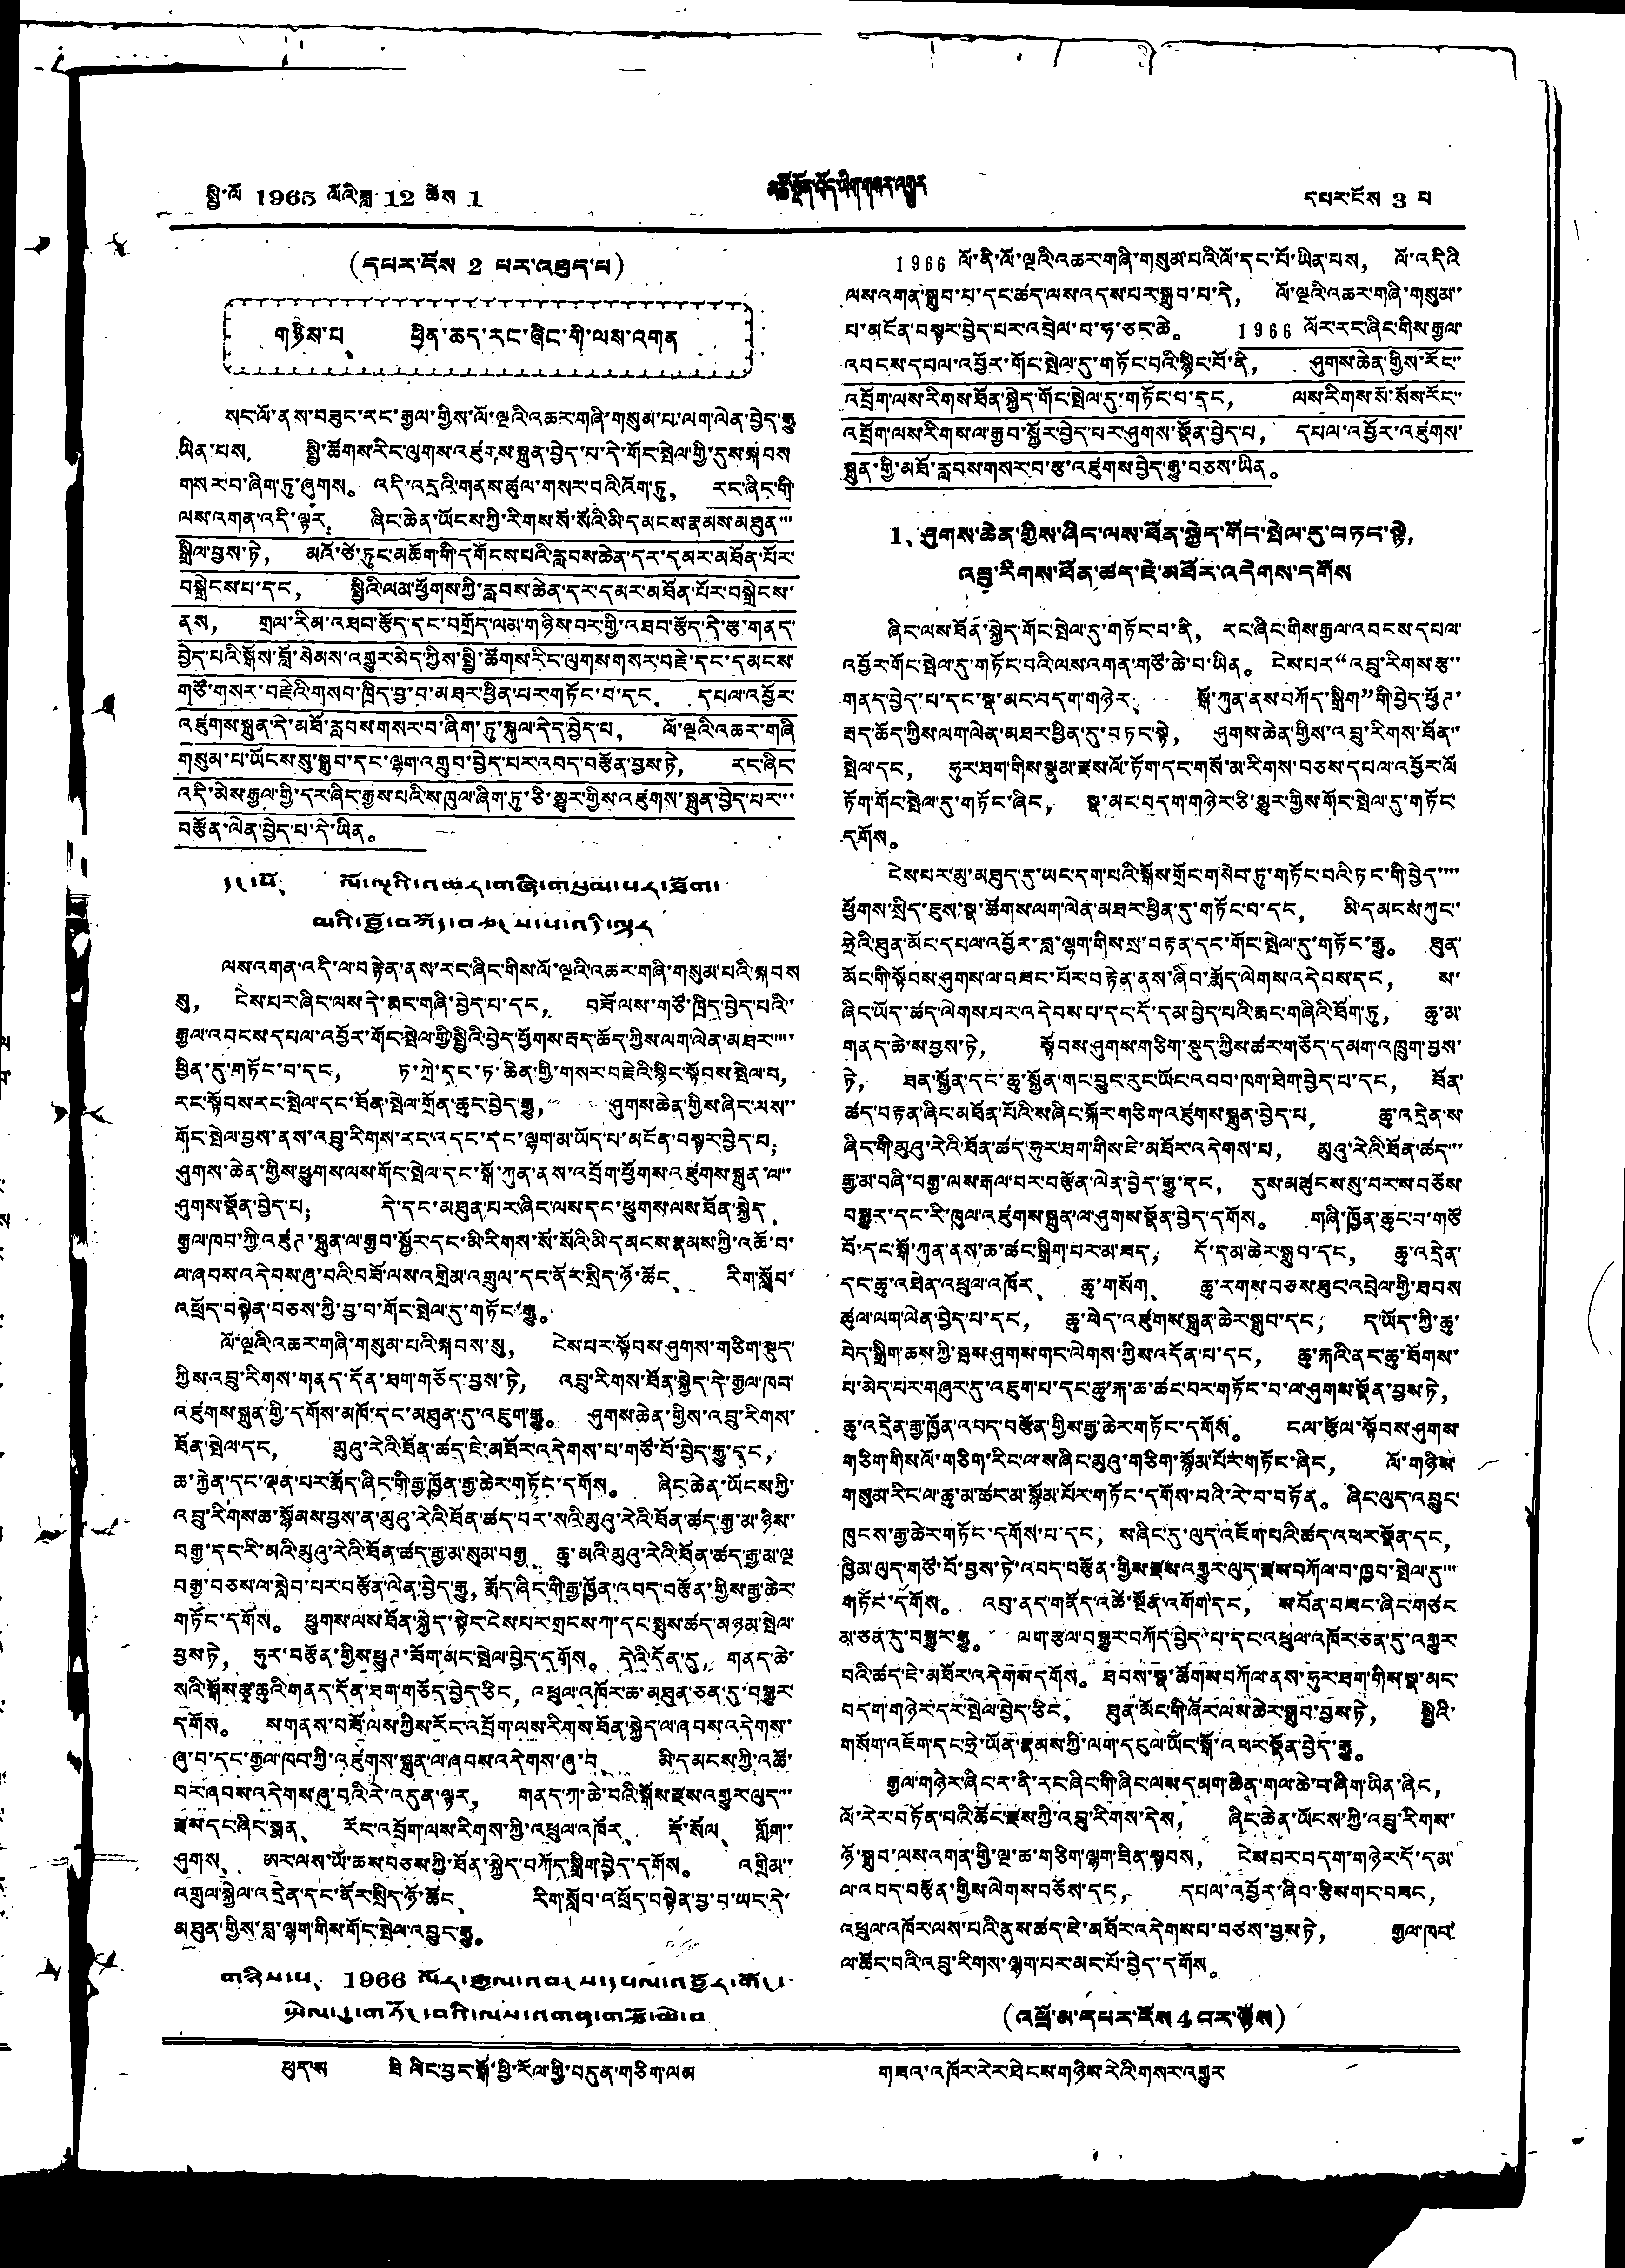སྤྱི་ལོ 1965 ལོའི་ཟླ་ 12 ཚེས 1 མཚོ་སྔོན་བོད་ཡིག་གསར་འགྱུར དཔར་ངོས 3 པ
(དཔར་ངོས 2 པར་འཕུད་པ)
གཉིས་པ、 ཕྱིན་ཆད་རང་ཞིང་གི་ལས་འགན
སང་ལོ་ནས་བཟུང་རང་རྒྱལ་གྱིས་ལོ་ལྔའི་འཆར་གཞི་གསུམ་པ་ལག་ལེན་བྱེད་རྒྱུ
ཡིན་པས， སྤྱི་ཚོགས་རིང་ལུགས་འཛུགས་སྐྲུན་བྱེད་པ་དེ་གོད་སྤེལ་གྱི་དུས་སྐབས
གསར་བ་ཞིག་ཏུ་ཞུགས。 འདི་འདྲའི་གནས་ཚུལ་གསར་བའི་འོག་ཏུ， རང་ཞིང་གི་
ལས་འགན་འདི་ལྟར ཞིང་ཆེན་ཡོངས་ཀྱི་རིགས་སོ་སོའི་མི་དམངས་རྣམས་མཐུན་་་
སྒྲིལ་བྱས་ཏེ， མའོ་ཙེ་ཏུང་མཆོག་གི་དགོངས་པའི་རླབས་ཆེན་དར་དམར་མཐོན་པོར་
བསྒྲེངས་པ་དང， སྤྱིའི་ལམ་ཕྱོགས་ཀྱི་རླབས་ཆེན་དར་དམར་མཐོན་པོར་བསྒྲེངས་
ནས， གྲལ་རིམ་འཐབ་རྩོད་དང་བགྲོད་ལམ་གཉིས་བར་གྱི་འཐབ་རྩོད་དེ་རྩ་གནད་
བྱེད་པའི་སྒོས་བློ་སེམས་འགྱུར་མེད་ཀྱིས་སྤྱི་ཚོགས་རིང་ལུགས་གསར་བརྗེ་དང་དམངས་
གཙོ་གསར་བརྗེའི་གསབ་ཁྲིད་བྱ་བ་མཐར་ཕྱིན་པར་གཏོང་བ་དང， དཔལ་འབྱོར་
འཛུགས་སྐྲུན་དེ་མཐོ་རླབས་གསར་བ་ཞིག་ཏུ་སྐུལ་དེད་བྱེད་པ， ལོ་ལྔའི་འཆར་གཞི
གསུམ་པ་ཡོངས་སུ་སྒྲུབ་དང་ལྷག་འགྲུབ་བྱེད་པར་འབད་བརྩོན་བྱས་ཏེ， རང་ཞིང་
འདི་མེས་རྒྱལ་གྱི་དར་ཞིང་རྒྱས་པའི་ས་ཁུལ་ཞིག་ཏུ་ཅི་མྱུར་གྱིས་འཛུགས་སྐྲུན་བྱེད་པར་་་
བརྩོན་ལེན་བྱེད་པ་དེ་ཡིན。
དང་པོ、 ལོ་ལྔའི་འཆར་གཞི་གསུམ་པར་ཐོག་
མའི་བྱོ་བཀོད་བཅངས་པ་འདི་ལྟར་
ལས་འགན་འདི་ལ་བརྟེན་ནས་རང་ཞིང་གིས་ལོ་ལྔའི་འཆར་གཞི་གསུམ་པའི་སྐབས
སུ， ངེས་པར་ཞིང་ལས་དེ་རྨང་གཞི་བྱེད་པ་དང， བཟོ་ལས་གཙོ་ཁྲིད་བྱེད་པའི་་
རྒྱལ་འབངས་དཔལ་འབྱོར་གོད་སྤེལ་གྱི་སྤྱིའི་བྱེད་ཕྱོགས་རྦད་ཆོད་ཀྱིས་ལག་ལེན་མཐར་་་་་
ཕྱིན་དུ་གཏོང་བ་དང， ཏ་ཀྲེ་དད་ཏ་ཆིན་གྱི་གསར་བརྗེའི་སྙིང་སྟོབས་སྤེལ་བ，
རང་སྟོབས་རང་སྤེལ་དང་ཐོན་སྤེལ་གྲོན་ཆུད་བྱེད་རྒྱུ， ཤུགས་ཆེན་གྱིས་ཞིང་ལས་་
གོང་སྤེལ་བྱས་ནས་འབྲུ་རིགས་རང་འདང་དང་ལྷག་མ་ཡོད་པ་མངོན་བསྟར་བྱེད་པ；
ཤུགས་ཆེན་གྱིས་ཕྱུགས་ལས་གོད་སྤེལ་དང་སྒོ་ཀུན་ནས་འབྲོག་ཕྱོགས་འཛུགས་སྐྲུན་ལ་་
ཤུགས་སྣོན་བྱེད་པ； དེ་དང་མཐུན་པར་ཞིང་ལས་དང་ཕྱུགས་ལས་ཐོན་སྐྱེད、
རྒྱལ་ཁབ་ཀྱི་འཛུཊ་སྐྲུན་ལ་རྒྱབ་སྐྱོར་དང་མི་རིགས་སོ་སོའི་མི་དམངས་རྣམས་ཀྱི་འཚོ་བ་
ལ་ཞབས་འདེབས་ཞུ་བའི་བཟོ་ལས་འགྲིམ་འགྲུལ་དང་ནོར་སྲིད་ཉོ་ཚོང、 རིག་སློབ་
འཕྲོད་བསྟེན་བཅས་ཀྱི་བྱ་བ་གོད་སྤེལ་དུ་གཏོང་རྒྱུ。
ལོ་ལྔའི་འཆར་གཞི་གསུམ་པའི་སྐབས་སུ， ངེས་པར་སྟོབས་ཤུགས་གཅིག་སྡུད་
ཀྱིས་འབྲུ་རིགས་གནད་དོན་ཐག་གཅོད་བྱས་ཏེ， འབྲུ་རིགས་ཐོན་སྐྱེད་དེ་རྒྱལ་ཁབ་
འཛུགས་སྐྲུན་གྱི་དགོས་མཁོ་དང་མཐུན་དུ་འཇུག་རྒྱུ。 ཤུགས་ཆེན་གྱིས་འབྲུ་རིགས་
ཐོན་སྤེལ་དང， མུའུ་རེའི་ཐོན་ཚད་ཇེ་མཐོར་འདེགས་པ་གཙོ་བོ་བྱེད་རྒྱུ་དང，
ཆ་རྐྱེན་དང་ལྡན་པར་རྨོད་ཞིང་གི་རྒྱ་ཁྱོན་རྒྱ་ཆེར་གཏོང་དགོས。 ཞིང་ཆེན་ཡོངས་ཀྱི་
འབྲུ་རིགས་ཆ་སྙོམས་བྱས་ན་མུའུ་རེའི་ཐོན་ཚད་བར་སའི་མུའུ་རེའི་ཐོན་ཚད་རྒྱ་མ་ཉིས་་
བརྒྱ་དང་རི་མའི་མུའུ་རེའི་ཐོན་ཚད་རྒྱ་མ་སུམ་བརྒྱ、 ཆུ་མའི་མུའུ་རེའི་ཐོན་ཚད་རྒྱ་མ་ལྔ
བརྒྱ་བཅས་ལ་སླེབ་པར་བརྩོན་ལེན་བྱེད་རྒྱུ， རྨོད་ཞིང་གི་རྒྱ་ཁྱོན་འབད་བརྩོན་གྱིས་རྒྱ་ཆེར་
གཏོང་དགོས。 ཕྱུགས་ལས་ཐོན་སྐྱེད་སྟེང་ངེས་པར་གྲངས་ཀ་དང་སྤུས་ཚད་མཉམ་སྤེལ་
བྱས་ཏེ， ཧུར་བརྩོན་གྱིས་ཕྱུཊ་ཟོག་མང་སྤེལ་བྱེད་དགོས。 དེའི་དོན་དུ， གནད་ཆེ་
སའི་སྒོས་རྩྭ་ཆུའི་གནད་དོན་ཐག་གཅོད་བྱེད་ཅིང， འཕྲུལ་འཁོར་ཆ་མཐུན་ཅན་དུ་བསྒྱུར་
དགོས。 ས་གནས་བཟོ་ལས་ཀྱིས་རོང་འབྲོག་ལས་རིགས་ཐོན་སྐྱེད་ལ་ཞབས་འདེགས་་
ཞུ་བ་དང་རྒྱལ་ཁབ་ཀྱི་འཛུགས་སྐྲུན་ལ་ཞབས་འདེགས་ཞུ་བ、 མི་དམངས་ཀྱི་འཚོ་
བར་ཞབས་འདེགས་ཞུ་བའི་རེ་འདུན་ལྟར， གནད་ཀ་ཆེ་བའི་སྒོས་རྫས་འགྱུར་ལུད་་་
རྫས་དང་ཞིང་སྨན、 རོང་འབྲོག་ལས་རིགས་ཀྱི་འཕྲུལ་འཁོར、 རྡོ་སོལ、 གློག་་
ཤུགས、 ཨར་ལས་ཡོ་ཆས་བཅས་ཀྱི་ཐོན་སྐྱེད་བཀོད་སྒྲིག་བྱེད་དགོས。 འགྲིམ་་
འགྲུལ་སྐྱེལ་འདྲེན་དང་ནོར་སྲིད་ཉོ་ཚོང、 རིག་སློབ་འཕྲོད་བསྟེན་བྱ་བ་ཡང་དེ་
མཐུན་གྱིས་བླ་ལྷག་གིས་གོད་སྤེལ་འབྱུང་རྒྱུ。
གཉིས་པ、 1966 ལོར་རྒྱལ་འབངས་དཔལ་འབྱོར་གོང་
སྤེལ་དུ་གཏོང་བའི་ལས་འགན་གཙོ་ཆེ་བ
1966 ལོ་ནི་ལོ་ལྔའི་འཆར་གཞི་གསུམ་པའི་ལོ་དང་པོ་ཡིན་པས， ལོ་འདིའི
ལས་འགན་སྒྲུབ་པ་དང་ཚད་ལས་འདས་པར་སྒྲུབ་པ་དེ， ལོ་ལྔའི་འཆར་གཞི་གསུམ་་
པ་མངོན་བསྟར་བྱེད་པར་འབྲེལ་བ་ཧ་ཅང་ཆེ。 1966 ལོར་རང་ཞིང་གིས་རྒྱལ་
འབངས་དཔལ་འབྱོར་གོང་སྤེལ་དུ་གཏོང་བའི་སྙིང་པོ་ནི， ཤུགས་ཆེན་གྱིས་རོང་་
འབྲོག་ལས་རིགས་ཐོན་སྐྱེད་གོར་སྤེལ་དུ་གཏོང་བ་དང， ལས་རིགས་སོ་སོས་རོང་་
འབྲོག་ལས་རིགས་ལ་རྒྱབ་སྐྱོར་བྱེད་པར་ཤུགས་སྣོན་བྱེད་པ， དཔལ་འབྱོར་འཛུགས་
སྐྲུན་གྱི་མཐོ་རླབས་གསར་བ་རྩ་འཛུགས་བྱེད་རྒྱུ་བཅས་ཡིན。
1、ཤུགས་ཆེན་གྱིས་ཞིང་ལས་ཐོན་སྐྱེད་གོད་སྤེལ་རུ་བཏང་སྟེ，
འབྲུ་རིགས་ཕོན་ཚད་ཇེ་མཐོར་འདེགས་དགོས
ཞིང་ལས་ཐོན་སྐྱེད་གོང་སྤེལ་དུ་གཏོང་བ་ནི， རང་ཞིང་གིས་རྒྱལ་འབངས་དཔལ་
འབྱོར་གོང་སྤེལ་དུ་གཏོང་བའི་ལས་འགན་གཙོ་ཆེ་བ་ཡིན。 ངེས་པར“འབྲུ་རིགས་རྩ་་
གནད་བྱེད་པ་དང་སྣ་མང་བདག་གཉེར、 སྒོ་ཀུན་ནས་བཀོད་སྒྲིག་གི་བྱེད་ཕྱོཊ་
རྦད་ཆོད་ཀྱིས་ལག་ལེན་མཐར་ཕྱིན་དུ་བཏང་སྟེ， ཤུགས་ཆེན་གྱིས་འབྲུ་རིགས་ཐོན་་
སྤེལ་དང， ཧུར་ཐག་གིས་སྣུམ་རྫས་ལོ་ཏོག་དང་གསོ་མ་རིགས་བཅས་དཔལ་འབྱོར་ལོ
ཏོག་གོང་སྤེལ་དུ་གཏོང་ཞིང， སྣ་མང་བདག་གཉེར་ཅི་མྱུར་གྱིས་གོང་སྤེལ་དུ་གཏོང་
དགོས。
ངེས་པར་མུ་མཐུད་དུ་ཡང་དག་པའི་སྒོས་གྲོང་གསེབ་ཏུ་གཏོང་བའི་ཏང་གི་བྱེད་་་་
ཕྱོགས་སྲིད་ཇུས་སྣ་ཚོགས་ལག་ལེན་མཐར་ཕྱིན་དུ་གཏོང་བ་དང， མི་དམངས་ཀུང་
ཧྲེའི་ཐུན་མོང་དཔལ་འབྱོར་བླ་ལྷག་གིས་སྲ་བརྟན་དང་གོང་སྤེལ་དུ་གཏོང་རྒྱུ。 ཐུན་
མོང་གི་སྟོབས་ཤུགས་ལ་བཟང་པོར་བརྟེན་ནས་ཞིབ་རྨོད་ལེགས་འདེབས་དང， ས་
ཞིང་ཡོད་ཚད་ལེགས་པར་འདེབས་པ་དང་དོ་དམ་བྱེད་པའི་རྨང་གཞིའི་ཐོག་ཏུ， ཆུ་མ་
གནད་ཆེ་ས་བྱས་ཏེ， སྟོབས་ཤུགས་གཅིག་སྡུད་ཀྱིས་ཚར་གཅོད་དམག་འཁྲུག་བྱས་
ཏེ， ཐན་སྐྱོན་དང་ཆུ་སྐྱོན་གང་བྱུང་རུང་ཡོང་འབབ་ཁག་ཐེག་བྱེད་པ་དང， ཐོན་
ཚད་བརྟན་ཞིང་མཐོན་པོའི་ས་ཞིང་སྐོར་གཅིག་འཛུགས་སྐྲུན་བྱེད་པ， ཆུ་འདྲེན་ས་
ཞིང་གི་མུའུ་རེའི་ཐོན་ཚད་ཧུར་ཐག་གིས་ཇེ་མཐོར་འདེགས་པ， མུའུ་རེའི་ཐོན་ཚད་་་
རྒྱ་མ་བཞི་བརྒྱ་ལས་རྒལ་བར་བརྩོན་ལེན་བྱེད་རྒྱུ་དང， དུས་མཚུངས་སུ་བརས་བཅོས་
བསྒྱུར་དང་རི་ཁུལ་འཛུགས་སྐྲུན་ལ་ཤུགས་སྣོན་བྱེད་དགོས。 གཞི་ཁྱོན་ཆུང་བ་གཙོ་
བོ་དང་སྒོ་ཀུན་ནས་ཆ་ཚང་སྒྲིག་པར་མ་ཟད， དོ་དམ་ཆེར་སྒྲུབ་དང， ཆུ་འདྲེན་
དང་ཆུ་འཐེན་འཕྲུལ་འཁོར、 ཆུ་གསོག、 ཆུ་རགས་བཅས་ཟུང་འབྲེལ་གྱི་ཐབས
ཚུལ་ལག་ལེན་བྱེད་པ་དང， ཆུ་ཕེད་འཛུགས་སྐྲུན་ཆེར་སྒྲུབ་དང， ད་ཡོད་ཀྱི་ཆུ་
བེད་སྒྲིག་ཆས་ཀྱི་སྦས་ཤུགས་གང་ལེགས་ཀྱིས་འདོན་པ་དང， ཆུ་རྐའི་ནང་ཆུ་ཐོགས་
པ་མེད་པར་གཞུར་དུ་འཇུག་པ་དང་ཆུ་རྐ་ཆ་ཚང་བར་གཏོང་བ་ལ་ཤུགས་སྣོན་བྱས་ཏེ，
ཆུ་འདྲེན་རྒྱ་ཁྱོན་འབད་བརྩོན་གྱིས་རྒྱ་ཆེར་གཏོང་དགོས。 ངལ་རྩོལ་སྟོབས་ཤུགས་
གཅིག་གིས་ལོ་གཅིག་རིང་ལ་ས་ཞིང་མུའུ་གཅིག་སྙོམ་པོར་གཏོང་ཞིང， ལོ་གཉིས་
གསུམ་རིང་ལ་ཆུ་མ་ཚང་མ་སྙོམ་པོར་གཏོང་དགོས་པའི་རེ་བ་བཏོན。 ཞིང་ལུད་འབྱུང་
ཁུངས་རྒྱ་ཆེར་གཏོང་དགོས་པ་དང， ས་ཞིང་དུ་ལུད་འཇོག་པའི་ཚད་འཕར་སྣོན་དང，
ཁྱིམ་ལུད་གཙོ་བོ་བྱས་ཏེ་འབད་བརྩོན་གྱིས་རྫས་འགྱུར་ལུད་རྫས་བཀོལ་བ་ཁྱབ་སྤེལ་དུ་་་
གཏོང་དགོས。 འབུ་ནད་གནོད་འཚེ་སྔོན་འགོག་དང， ས་བོན་བཟང་ཞིང་གཙང
མ་ཅན་དུ་བསྒྱུར་རྒྱུ。 ལག་རྩལ་བསྒྱུར་བཀོད་བྱེད་པ་དང་འཕྲུལ་འཁོར་ཅན་དུ་འགྱུར་
བའི་ཚད་ཇེ་མཐོར་འདེགས་དགོས。 ཐབས་སྣ་ཚོགས་བཀོལ་ནས་ཧུར་ཐག་གིས་སྣ་མང་
བདག་གཉེར་དར་སྤེལ་བྱེད་ཅིང， ཐུན་མོང་གི་ཞོར་ལས་ཆེར་སྒྲུབ་བྱས་ཏེ， སྤྱིའི་
གསོག་འཇོག་དང་ཧྲེ་ཡོན་རྣམས་ཀྱི་ལག་དངུལ་ཡོད་སྒོ་འཕར་སྣོན་བྱེད་རྒྱུ。
རྒྱལ་གཉེར་ཞིང་ར་ནི་རང་ཞིང་གི་ཞིང་ལས་དམག་ཆེན་གལ་ཆེ་བ་ཞིག་ཡིན་ཞིང，
ལོ་རེར་བཏོན་པའི་ཚོང་རྫས་ཀྱི་འབྲུ་རིགས་དེས， ཞིང་ཆེན་ཡོངས་ཀྱི་འབྲུ་རིགས་
ཉོ་སྒྲུབ་ལས་འགན་གྱི་ལྔ་ཆ་གཅིག་ལྷག་ཟིན་སྟབས， ངེས་པར་བདག་གཉེར་དོ་དམ་
ལ་འབད་བརྩོན་གྱིས་ལེགས་བཅོས་དང， དཔལ་འབྱོར་ཞིབ་རྩིས་གད་བཟང，
འཕྲུལ་འཁོར་ལས་པའི་ནུས་ཚད་ཇེ་མཐོར་འདེགས་པ་བཙས་བྱས་ཏེ， རྒྱལ་ཁབ་
ལ་ཚོང་བའི་འབྲུ་རིགས་ལྷག་པར་མང་པོ་བྱེད་དགོས。
(འཕྲོ་མ་དཔར་ངོས 4 བར་ལྟོས)
ཕུད་ས ཟི ལིང་བྱང་སྒོ་ཕྱི་རོལ་གྱི་བདུན་གཅིག་ལམ གཟའ་འཁོར་རེར་ཐེངས་གཉིས་རེའི་གསར་འགྱུར
